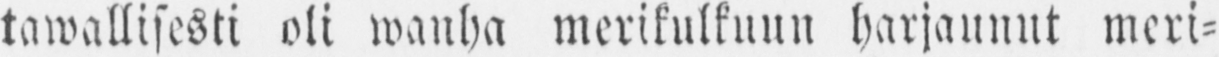tawallisesti oli wanha merikulkuun harjaunut meri-
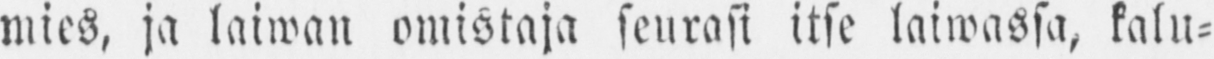mies, ja laiwan omistaja seurasi itse laiwassa, kalu-
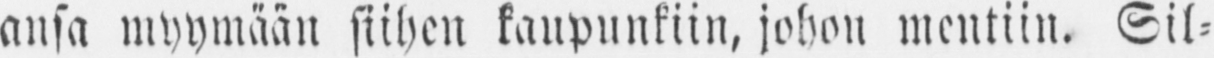ansa myymään siihen kaupunkiin, johon mentiin. Sil-
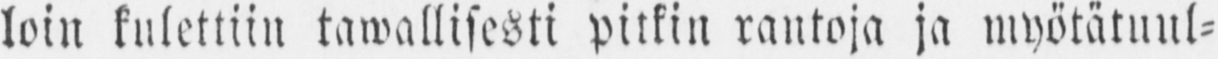loin kulettiin tawallisesti pitkin rantoja ja myötätuul-
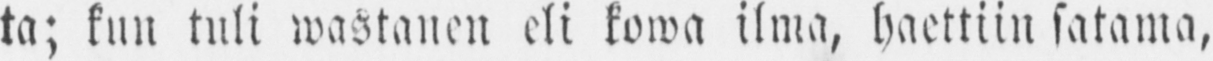ta; kun tuli wastanen eli kowa ilma, haettiin satama,
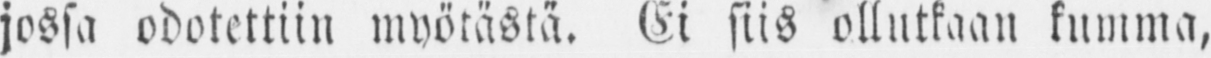jossa odotettiin myötästä. Ei siis ollutkaan kumma,
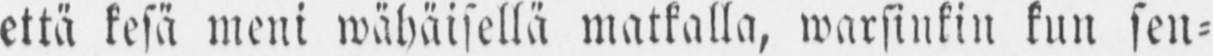että kesä meni wähäisellä matkalla, warsinkin kun sen-
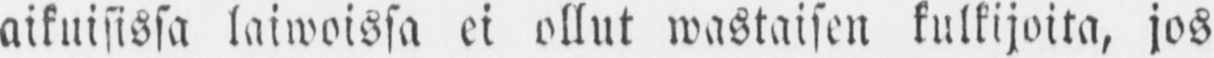aikuisissa laiwoissa ei ollut wastaisen kulkijoita, jos
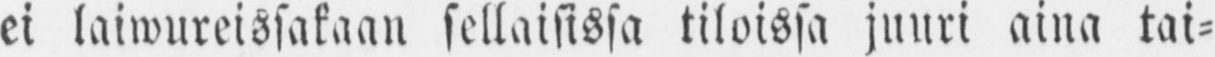ei laiwureissakaan sellaisissa tiloissa juuri aina tai-
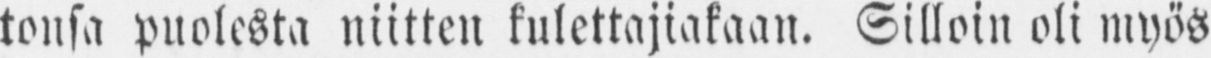tonsa puolesta niitten kulettajiakaan. Silloin oli myös
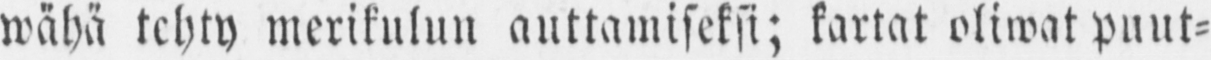wähä tehty merikulun auttamiseksi; kartat oliwat puut-
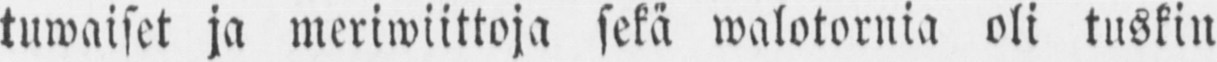tuwaiset ja meriwiittoja sekä walotornia oli tuskin
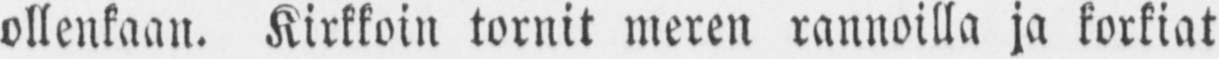ollenkaan. Kirkkoni tornit meren rannoilla ja korkiat
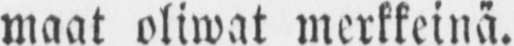maat oliwat merkkeinä.
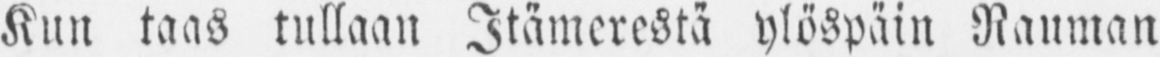Kun taas tullaan Itämerestä ylöspäin Rauman
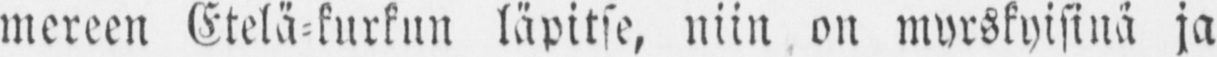mereen Etelä-kurkun läpitse, niin on myrskyisinä ja
